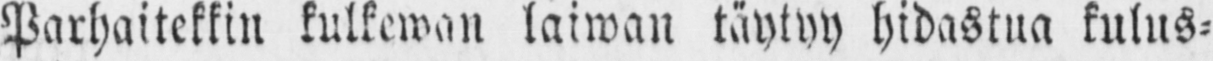Parhaitekkin kulkewan laiwan täytyy hidastua kulus-
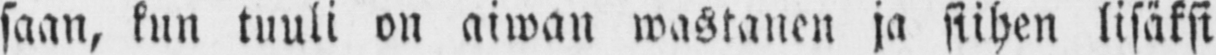saan, kun tuuli on aiwan wastanen ja siihen lisäksi
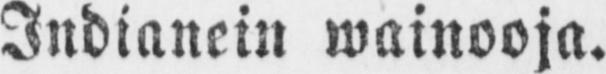Indianein wainooja.
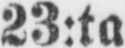23:ta
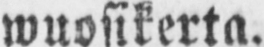wuosikerta.
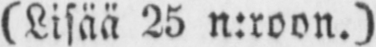(Lisää 25 n:roon.)
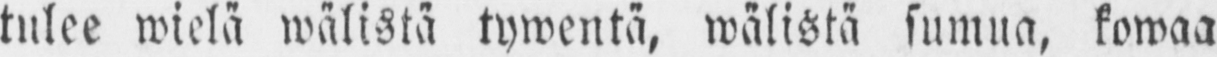tulee wielä wälistä tywentä, wälistä sumua, kowaa
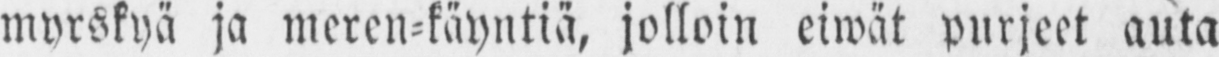myrskyä ja meren-käyntiä, jolloin eiwät purjeet auta
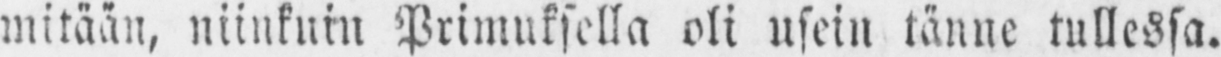mitään, niinkuin Primuksella oli usein tänne tullessa.
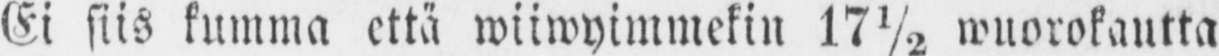Ei siis kumma että wiiwyimmekin 17½ wuorokautta
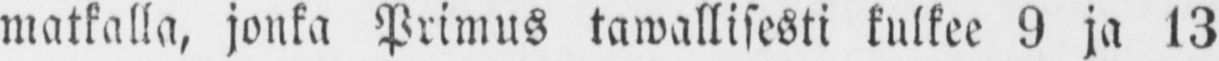matkalla, jonka Primus tawallisesti kulkee 9 ja 13
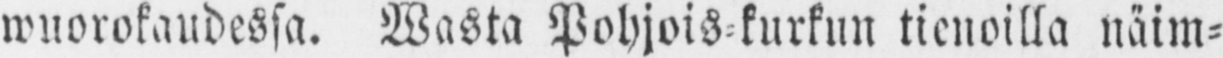wuorokaudessa. Wasta Pohjois-kurkun tienoilla näim-
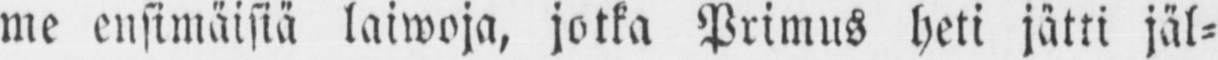me ensimäisiä laiwoja, jotka Primus heti jätti jäl-
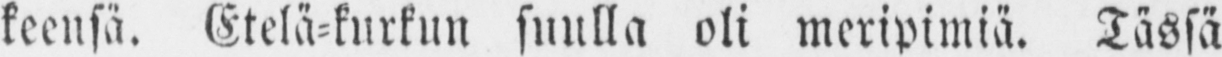keensä. Etelä-kurkun suulla oli meripimiä. Tässä
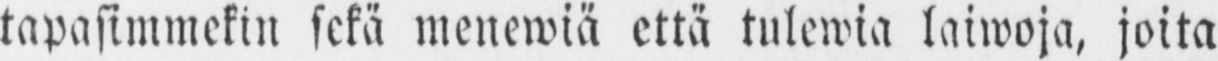tapasimmekin sekä menewiä että tulewia laiwoja, joita
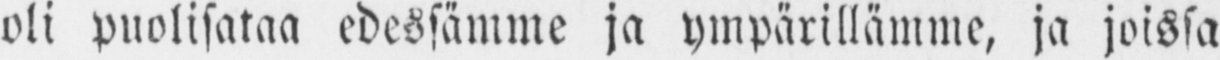oli puolisataa edessämme ja ympärillämme, ja joissa
